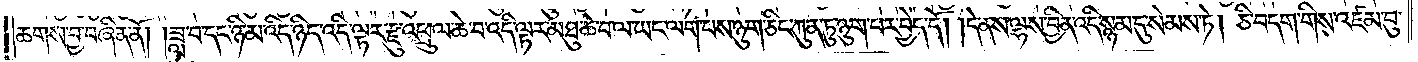ཆགས་བྱ་བཞིན་ནོ། །ཟླ་བ་དང་ཉི་མ་འདི་ཉིད་འདི་ལྟར་རྫུ་འཕྲུལ་ཆེ་བ་འདི་ལྟར་མཐུ་ཆེ་བ་ལ་ཡང་ལག་པས་ཉུག་ཅིང་ཀུན་ཏུ་ཉུག་པར་བྱེད་དོ། །དེ་ནས་ལྷས་བྱིན་འདི་སྙམ་དུ་སེམས་ཏེ། ཅི་བདག་གིས་འཛམ་བུ་
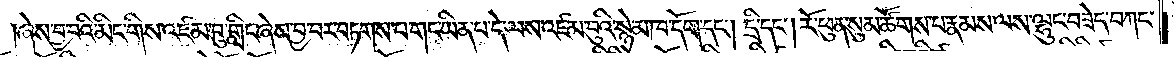།ཞེས་བྱ་བའི་མིང་གིས་འཛམ་བུ་གླིང་ཞེས་བྱ་བར་བཏགས་པ་གང་ཡིན་པ་དེ་ལས་འཛམ་བུའི་སྙེ་མ་ཁ་དོག་དང༌། དྲི་དང༌། རོ་ཕུན་སུམ་ཚོགས་པ་རྣམས་ལས་ལྷུང་བཟེད་བཀང་
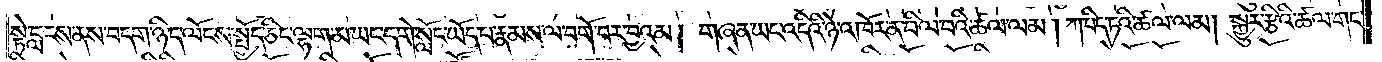སྟེ་བླངས་ནས་བདག་ཉིད་ལོངས་སྤྱོད་ཅིང་ལྷག་མ་ཡང་དགེ་སློང་ཡོད་པ་རྣམས་ལ་བགོ་བར་བྱའམ། གཞན་ཡང་འདིའི་ཉེ་འཁོར་ན་བིལ་བའི་ཚལ་ལམ། ཀ་པིད་ཏའི་ཚལ་ལམ། སྐྱུར་རྩིའི་ཚལ་གང་
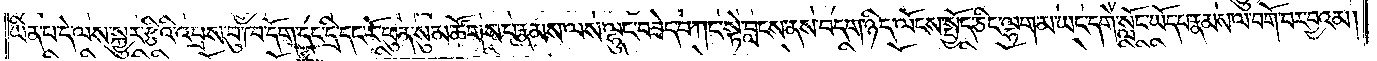ཡིན་པ་དེ་ལས་སྐྱུར་རྩིའི་འབྲས་བུ་ཁ་དོག་དང་དྲི་དང་རོ་ཕུན་སུམ་ཚོགས་པ་རྣམས་ལས་ལྷུང་བཟེད་བཀང་སྟེ་བླངས་ནས་བདག་ཉིད་ལོངས་སྤྱོད་ཅིང་ལྷག་མ་ཡང་དགེ་སློང་ཡོད་པ་རྣམས་ལ་བགོ་བར་བྱའམ།
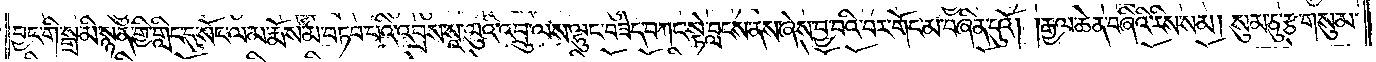བྱང་གི་སྒྲ་མི་སྙན་གྱི་གླིང་དུ་སོང་ལ་མ་རྨོས་མ་བཏབ་པའི་འབྲས་སཱ་ལུའི་འབྲུ་ལས་ལྷུང་བཟེད་བཀང་སྟེ་བླངས་ནས་ཞེས་བྱ་བའི་བར་གོང་མ་བཞིན་དུའོ། །རྒྱལ་ཆེན་བཞིའི་རིས་སམ། སུམ་ཅུ་རྩ་གསུམ་
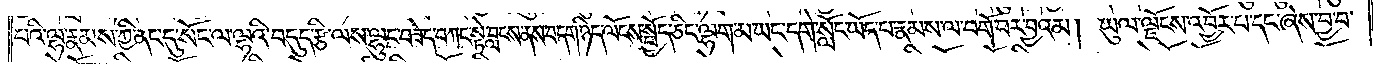པའི་ལྷ་རྣམས་ཀྱི་ནང་དུ་སོང་ལ་ལྷའི་བདུད་རྩི་ལས་ལྷུང་བཟེད་བཀང་སྟེ་བླངས་ནས་བདག་ཉིད་ལོངས་སྤྱོད་ཅིང་ལྷག་མ་ཡང་དགེ་སློང་ཡོད་པ་རྣམས་ལ་བགོ་བར་བྱའམ། ཡུལ་ལྗོངས་འབྱོར་པ་དང་ཞེས་བྱ་བ་
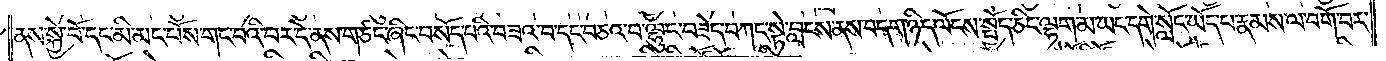ནས་སྐྱེ་བོ་དང་མི་མང་པོས་གང་བའི་བར་དེ་ནས་གཙང་ཞིང་བསོད་པའི་བཟའ་བ་དང་བཅའ་བ་ལྷུང་བཟེད་བཀང་སྟེ་བླངས་ནས་བདག་ཉིད་ལོངས་སྤྱོད་ཅིང་ལྷག་མ་ཡང་དགེ་སློང་ཡོད་པ་རྣམས་ལ་བགོ་བར་
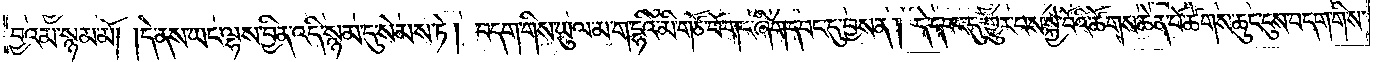བྱའམ་སྙམ་མོ། །དེ་ནས་ཡང་ལྷས་བྱིན་འདི་སྙམ་དུ་སེམས་ཏེ། བདག་གིས་ཡུལ་མ་ག་དྷའི་མི་གཙོ་བོ་གང་ཞིག་དབང་དུ་བྱས་ན། དེ་དབང་དུ་གྱུར་པས་སྐྱེ་བོའི་ཚོགས་ཆེན་པོ་ཚེགས་ཆུང་ངུས་བདག་གིས་
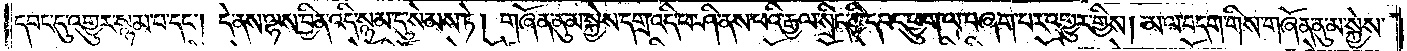དབང་དུ་འགྱུར་སྙམ་པ་དང༌། དེ་ནས་ལྷས་བྱིན་འདི་སྙམ་དུ་སེམས་ཏེ། གཞོན་ནུ་མ་སྐྱེས་དགྲ་འདི་ཕ་ཤི་ནས་ཕའི་རྒྱལ་སྲིད་ཀྱི་དབང་ཕྱུག་ལ་བཞག་པར་འགྱུར་གྱིས། མ་ལ་བདག་གིས་གཞོན་ནུ་མ་སྐྱེས་
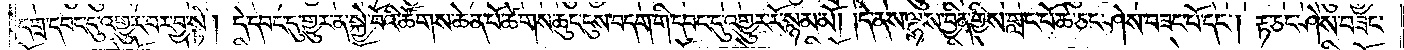དགྲ་དབང་དུ་འགྱུར་བར་བྱ་སྟེ། དེ་དབང་དུ་གྱུར་ན་སྐྱེ་བོའི་ཚོགས་ཆེན་པོ་ཚེགས་ཆུང་ངུས་བདག་གི་དབང་དུ་འགྱུར་རོ་སྙམ་མོ། །དེ་ནས་ལྷས་བྱིན་གྱིས་གླང་པོ་ཆེ་ཅང་ཤེས་བཟང་པོ་དང༌། རྟ་ཅང་ཤེས་བཟང་
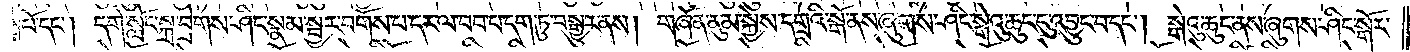པོ་དང༌། དགེ་སློང་སྐྲ་བྲེགས་ཤིང་སྣམ་སྦྱར་བགོས་པ་དར་ལ་བབ་པ་དག་ཏུ་བསྒྱུར་ནས། གཞོན་ནུ་མ་སྐྱེས་དགྲའི་སྒོ་ནས་ཞུགས་ཤིང་སྒེའུ་ཆུང་ངུ་འབྱུང་བ་དང༌། སྒེའུ་ཆུང་ནས་ཞུགས་ཤིང་སྒོར་
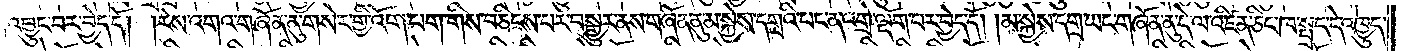འབྱུང་བར་བྱེད་དོ། །རེས་འགའ་གཞོན་ནུ་གསེར་གྱི་འོག་པག་གིས་བཅིངས་པར་བསྒྱུར་ནས་གཞོན་ནུ་མ་སྐྱེས་དགྲའི་པང་ན་འགྲེ་ལྡོག་པར་བྱེད་དོ། །མ་སྐྱེས་དགྲ་ཡང་གཞོན་ནུ་དེ་ལ་འཛིན་ཅིང་ཁ་སྤྲད་དེ་འཁྱུད་
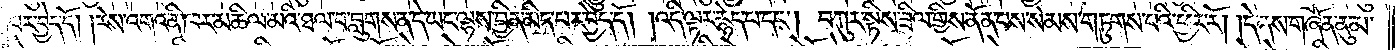པར་བྱེད་དོ། །རེས་འགའ་ནི་ཁར་མཆིལ་མའི་ཐལ་བ་བླུགས་ན་དེ་ཡང་ལྷས་བྱིན་མིད་པར་བྱེད་དོ། །འདི་ལྟར་རྙེད་པ་དང༌། བཀུར་སྟིས་ཟིལ་གྱིས་ནོན་པས་སེམས་གཏུགས་པའི་ཕྱིར་རོ། །དེ་ནས་གཞོན་ནུ་མ་
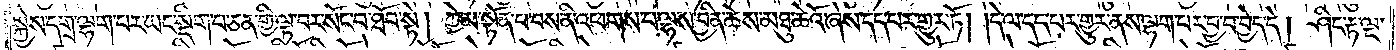སྐྱེས་དགྲ་ལྷག་པར་ཡང་སྡིག་པ་ཅན་གྱི་ལྟ་བར་སོང་བ་ཐོབ་སྟེ། ཀྱེ་མ་སྟོན་པ་བས་ནི་འཕགས་པ་ལྷས་བྱིན་ཆེས་མཐུ་ཆེའོ་ཞེས་དད་པར་གྱུར་ཏོ། །དེ་ལ་དད་པར་གྱུར་ནས་ལྷག་པར་བྱ་བ་བྱེད་དེ། ཤིང་རྟ་ལྔ་
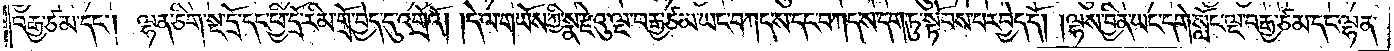བརྒྱ་ཙམ་དང༌། ལྷན་ཅིག་སྔ་དྲོ་དང་ཕྱི་དྲོ་རིམ་གྲོ་བྱེད་དུ་འགྲོའོ། །དེ་ལ་གཡོས་ཀྱི་སྣ་རྫེའུ་ལྔ་བརྒྱ་ཙམ་ཡང་བཀད་ས་དང་བཀད་ས་དག་ཏུ་སྟོབས་པར་བྱེད་དོ། །ལྷས་བྱིན་ཡང་དགེ་སློང་ལྔ་བརྒྱ་ཙམ་དང་ལྷན་
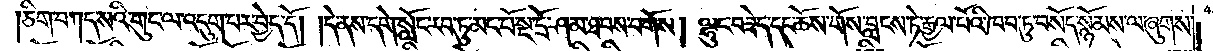ཅིག་བཀད་སའི་གུང་ལ་འདུག་པར་བྱེད་དོ། །དེ་ནས་དགེ་སློང་རབ་ཏུ་མང་པོ་སྔ་དྲོ་ཤམ་ཐབས་བགོས། ལྷུང་བཟེད་དང་ཆོས་གོས་བླངས་ཏེ་རྒྱལ་པོའི་ཁབ་ཏུ་བསོད་སྙོམས་ལ་ཞུགས་
